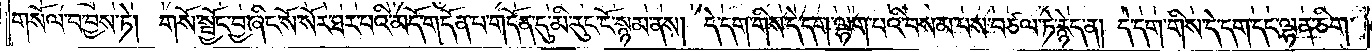གསོལ་བ་བྱས་ཏེ། གསོ་སྦྱོང་བྱ་ཞིང་སོ་སོར་ཐར་པའི་མདོ་གདོན་པ་གདོན་དུ་མི་རུང་ངོ་སྙམ་ནས། དེ་དག་གིས་དེ་དག་ལྷག་པའི་བསམ་པས་བཙལ་ཏེ་རྙེད་ན། དེ་དག་གིས་དེ་དག་དང་ལྷན་ཅིག་
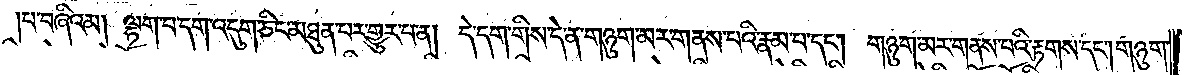པ་བཞིའམ། ལྷག་པ་དག་འདུག་ཅིང་མཐུན་པར་གྱུར་པ་ན། དེ་དག་གིས་དེ་ན་གཉུག་མར་གནས་པའི་རྣམ་པ་དང༌། གཉུག་མར་གནས་པའི་རྟགས་དང༌། གཉུག་
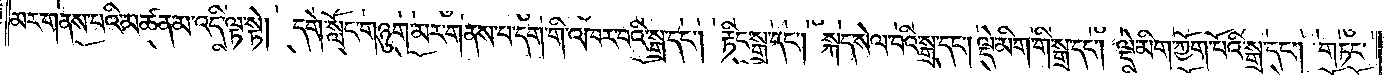མར་གནས་པའི་མཚན་མ་འདི་ལྟ་སྟེ། དགེ་སློང་གཉུག་མར་གནས་པ་དག་གི་འཁར་བའི་སྒྲ་དང༌། རྟིང་སྒྲ་དང༌། སྐད་སེལ་བའི་སྒྲ་དང༌། ལྡེ་མིག་གི་སྒྲ་དང༌། ལྡེ་མིག་ཀྱོག་པོའི་སྒྲ་དང༌། གཏང་
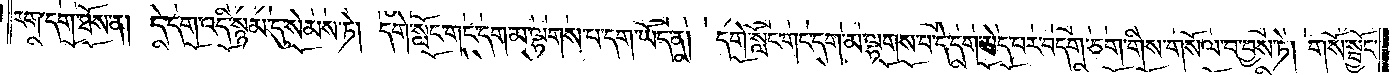རག་དག་ཐོས་ན། དེ་དག་འདི་སྙམ་དུ་སེམས་ཏེ། དགེ་སློང་གང་དག་མ་ལྷགས་པ་དག་ཡོད་ན། དགེ་སློང་གང་དག་མ་ལྷགས་པ་དེ་དག་མེད་པར་བདག་ཅག་གིས་གསོལ་བ་བྱས་ཏེ། གསོ་སྦྱོང་
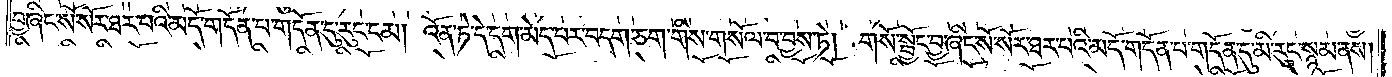བྱ་ཞིང་སོ་སོར་ཐར་པའི་མདོ་གདོན་པ་གདོན་དུ་རུང་ངམ། འོན་ཏེ་དེ་དག་མེད་པར་བདག་ཅག་གིས་གསོལ་བ་བྱས་ཏེ། གསོ་སྦྱོང་བྱ་ཞིང་སོ་སོར་ཐར་པའི་མདོ་གདོན་པ་གདོན་དུ་མི་རུང་སྙམ་ནས།
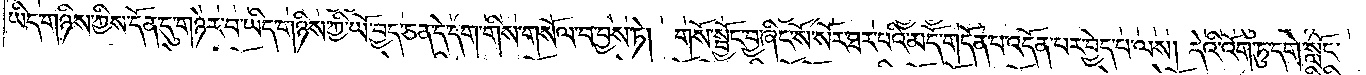ཡིད་གཉིས་ཀྱིས་དོན་དུ་གཉེར་བ་ཡིད་གཉིས་ཀྱི་ཡོ་བྱད་ཅན་དེ་དག་གིས་གསོལ་བ་བྱས་ཏེ། གསོ་སྦྱོང་བྱ་ཞིང་སོ་སོར་ཐར་པའི་མདོ་གདོན་པ་འདོན་པར་བྱེད་པ་ལས། དེའི་འོག་ཏུ་དགེ་སློང་
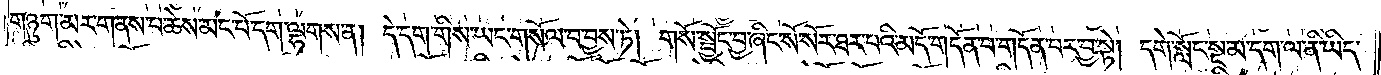གཉུག་མར་གནས་པ་ཆེས་མང་པོ་དག་ལྷགས་ན། དེ་དག་གིས་ཡང་གསོལ་བ་བྱས་ཏེ། གསོ་སྦྱོང་བྱ་ཞིང་སོ་སོར་ཐར་པའི་མདོ་གདོན་པ་གདོན་པར་བྱ་སྟེ། དགེ་སློང་སྔ་མ་དག་ལ་ནི་ཡིད་
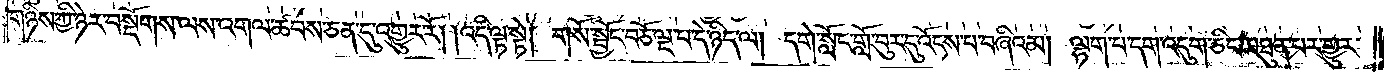གཉིས་ཀྱི་ཉེར་བསྡོགས་ལས་འགལ་ཚབས་ཅན་དུ་འགྱུར་རོ། །འདི་ལྟ་སྟེ། གསོ་སྦྱོང་བཅོ་ལྔ་པ་དེ་ཉིད་ལ། དགེ་སློང་གློ་བུར་དུ་འོངས་པ་བཞིའམ། ལྷག་པ་དག་འདུག་ཅིང་མཐུན་པར་གྱུར་
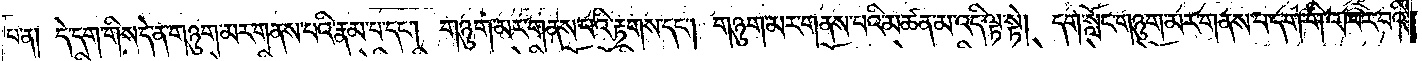པ་ན། དེ་དག་གིས་དེ་ན་གཉུག་མར་གནས་པའི་རྣམ་པ་དང༌། གཉུག་མར་གནས་པའི་རྟགས་དང༌། གཉུག་མར་གནས་པའི་མཚན་མ་འདི་ལྟ་སྟེ། དགེ་སློང་གཉུག་མར་གནས་པ་དག་གི་འཁར་བའི་
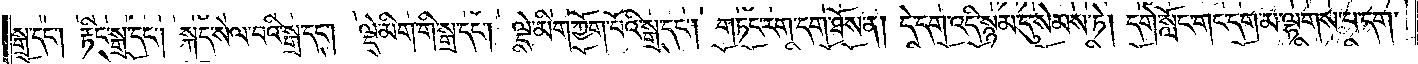སྒྲ་དང༌། རྟིང་སྒྲ་དང༌། སྐད་སེལ་བའི་སྒྲ་དང༌། ལྡེ་མིག་གི་སྒྲ་དང༌། ལྡེ་མིག་ཀྱོག་པོའི་སྒྲ་དང༌། གཏང་རག་དག་ཐོས་ན། དེ་དག་འདི་སྙམ་དུ་སེམས་ཏེ། དགེ་སློང་གང་དག་མ་ལྷགས་པ་དག་
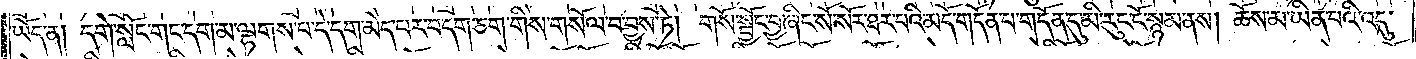ཡོད་ན། དགེ་སློང་གང་དག་མ་ལྷགས་པ་དེ་དག་མེད་པར་བདག་ཅག་གིས་གསོལ་བ་བྱས་ཏེ། གསོ་སྦྱོང་བྱ་ཞིང་སོ་སོར་ཐར་པའི་མདོ་གདོན་པ་གདོན་དུ་མི་རུང་ངོ་སྙམ་ནས། ཆོས་མ་ཡིན་པའི་འདུ་
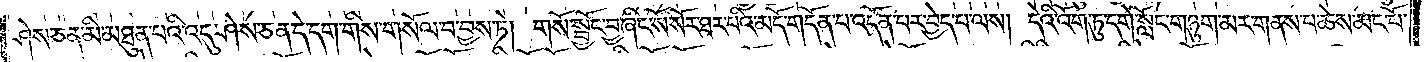ཤེས་ཅན་མི་མཐུན་པའི་འདུ་ཤེས་ཅན་དེ་དག་གིས་གསོལ་བ་བྱས་ཏེ། གསོ་སྦྱོང་བྱ་ཞིང་སོ་སོར་ཐར་པའི་མདོ་གདོན་པ་འདོན་པར་བྱེད་པ་ལས། དེའི་འོག་ཏུ་དགེ་སློང་གཉུག་མར་གནས་པ་ཆེས་མང་པོ་
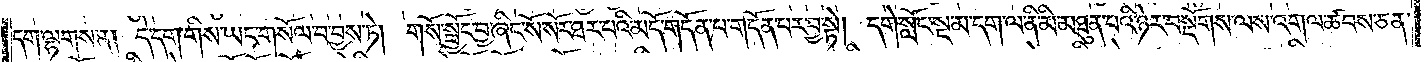དག་ལྷགས་པ་ན། དེ་དག་གིས་ཡང་གསོལ་བ་བྱས་ཏེ། གསོ་སྦྱོང་བྱ་ཞིང་སོ་སོར་ཐར་པའི་མདོ་གདོན་པ་གདོན་པར་བྱ་སྟེ། དགེ་སློང་སྔ་མ་དག་ལ་ནི་མི་མཐུན་པའི་ཉེར་བསྡོགས་ལས་འགལ་ཚབས་ཅན་
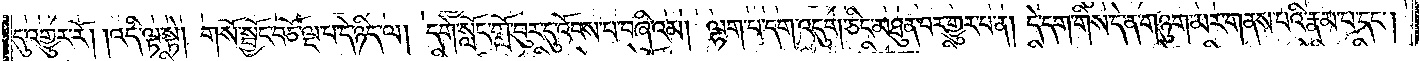དུ་འགྱུར་རོ། །འདི་ལྟ་སྟེ། གསོ་སྦྱོང་བཅོ་ལྔ་པ་དེ་ཉིད་ལ། དགེ་སློང་གློ་བུར་དུ་འོངས་པ་བཞིའམ། ལྷག་པ་དག་འདུག་ཅིང་མཐུན་པར་གྱུར་པ་ན། དེ་དག་གིས་དེ་ན་གཉུག་མར་གནས་པའི་རྣམ་པ་དང༌།
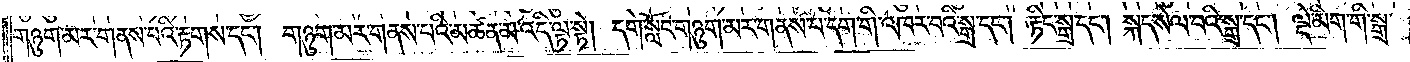གཉུག་མར་གནས་པའི་རྟགས་དང༌། གཉུག་མར་གནས་པའི་མཚན་མ་འདི་ལྟ་སྟེ། དགེ་སློང་གཉུག་མར་གནས་པ་དག་གི་འཁར་བའི་སྒྲ་དང༌། རྟིང་སྒྲ་དང༌། སྐད་སེལ་བའི་སྒྲ་དང༌། ལྡེ་མིག་གི་སྒྲ་
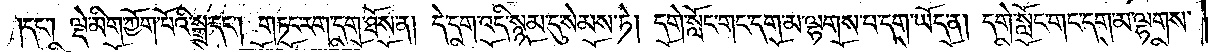དང༌། ལྡེ་མིག་ཀྱོག་པོའི་སྒྲ་དང༌། གཏང་རག་དག་ཐོས་ན། དེ་དག་འདི་སྙམ་དུ་སེམས་ཏེ། དགེ་སློང་གང་དག་མ་ལྷགས་པ་དག་ཡོད་ན། དགེ་སློང་གང་དག་མ་ལྷགས་
